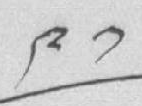༩༡
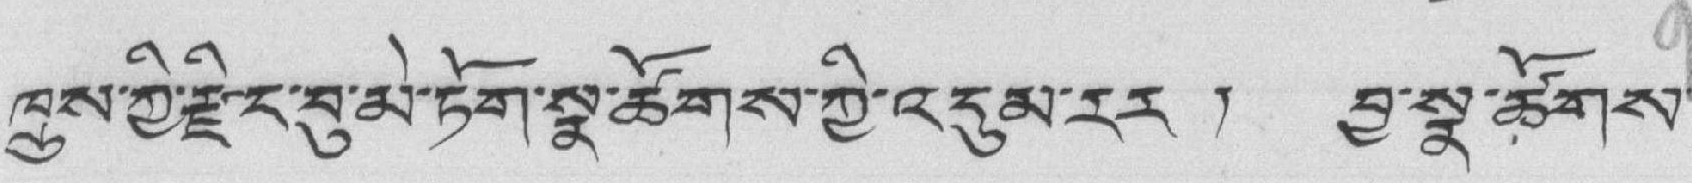ཁྲུས་ཀྱི་རྫིང་བུ་མེ་ཏོག་སྣ་ཚོགས་ཀྱི་འདུམ་རར ། བྱ་སྣ་ཚོགས་
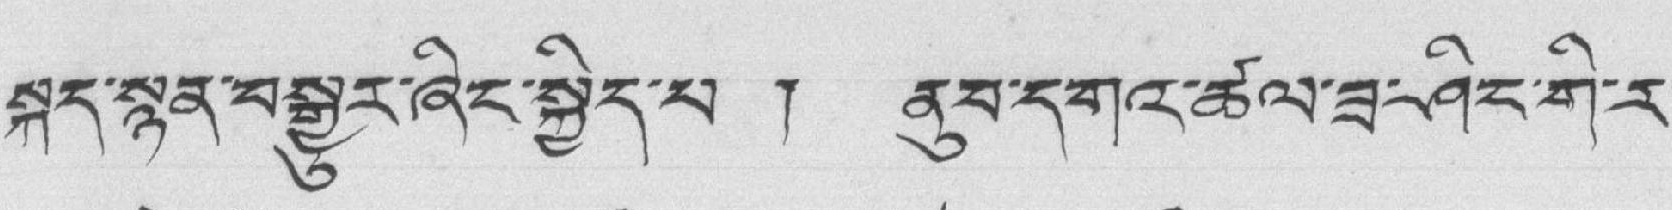སྐད་སྙན་བསྒྱུར་ཞིང་སྐྱེད་པ ། ནུབ་དགའ་ཚལ་ཟ་ཤིང་གི་ར་
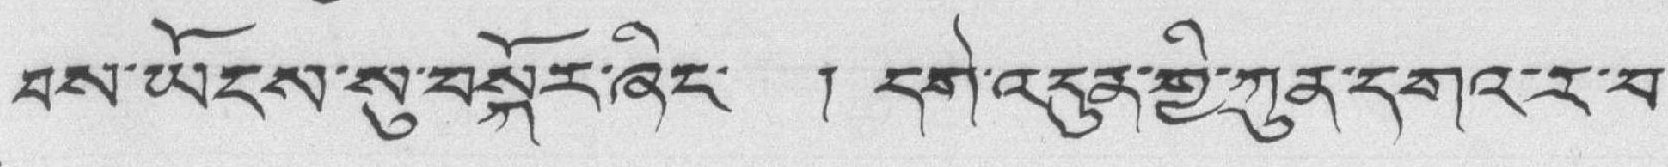བས་ཡོངས་སུ་བསྐོར་ཞིང་ ། དགེ་འདུན་གྱི་ཀུན་དགའ་ར་བ་
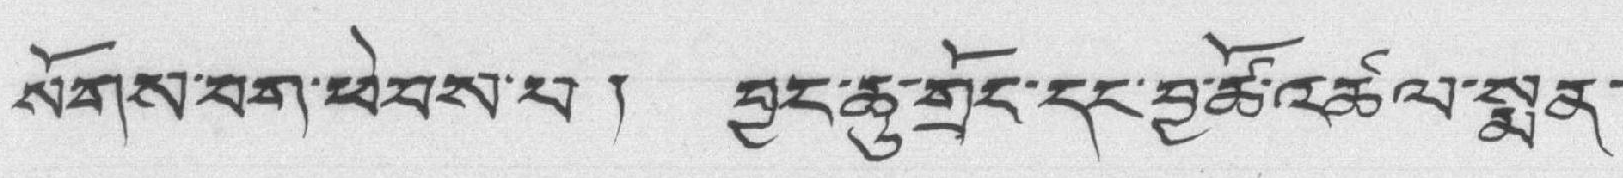སོགས་བག་ཕེབས་པ། བྱད་ཆུ་གྲོང་དང་བྱ་ཚོ་འཚལ་སྨན་
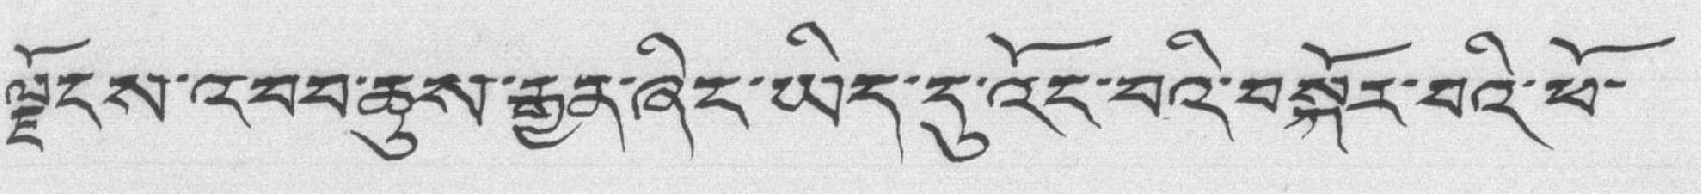ལྗོངས་འབབ་ཆུས་རྒྱན་ཞིང་ཡིད་དུ་འོང་བའི་བསྐོར་བའི་ཕོ་
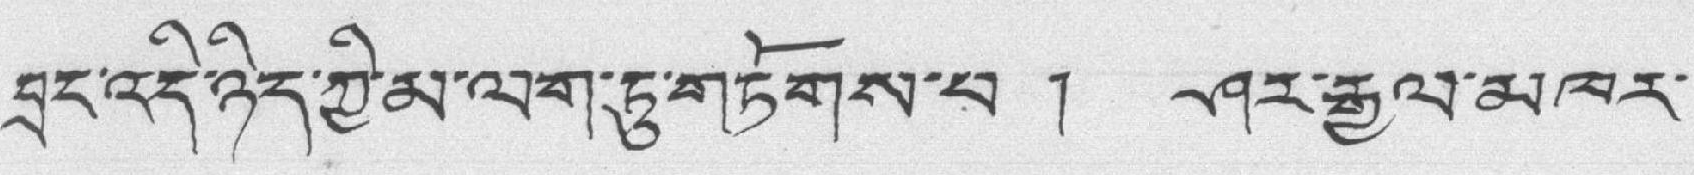བྲང་འདི་ཉིད་ཀྱི་མ་ལག་ཏུ་གཏོགས་པ ། ཤར་རྒྱལ་མཁར་
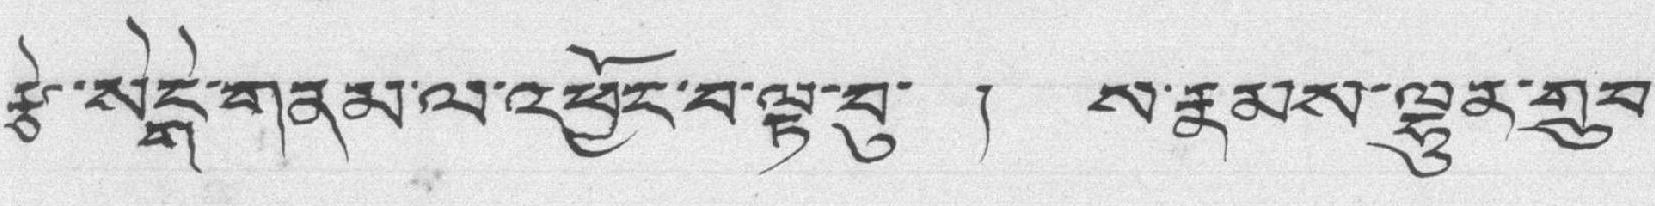རྩེ་སེདྒེ་གནམ་ལ་འཕྱོང་བ་ལྟ་བུ་ ། ས་རྣམས་ལྷུན་གྲུབ་
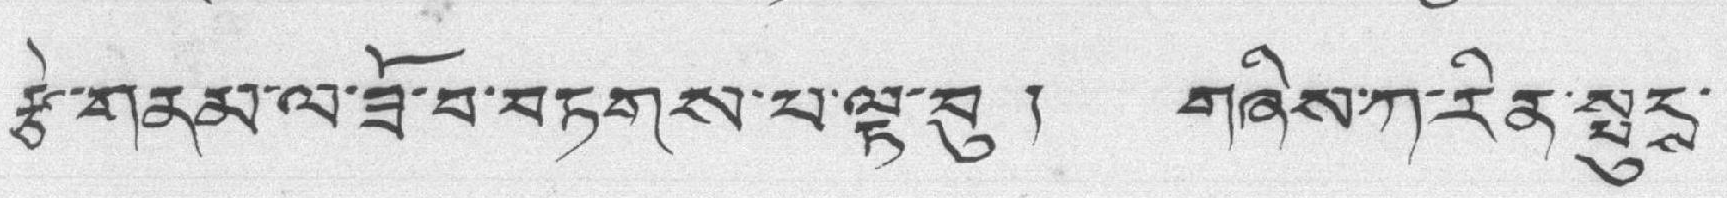རྩེ་གནམ་ལ་ཟོ་བ་བཏགས་པ་ལྟ་བུ ། གཞིས་ཀ་རིན་སྤུངས་
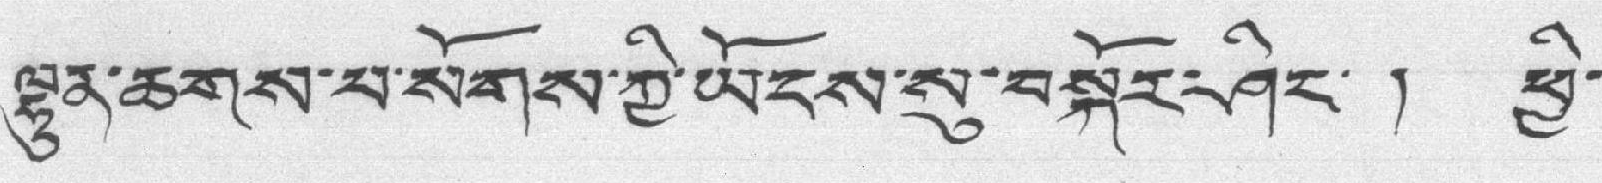ལྷུན་ཆགས་པ་སོགས་ཀྱི་ཡོངས་སུ་བསྐོར་ཤིང་ ། ཕྱི་
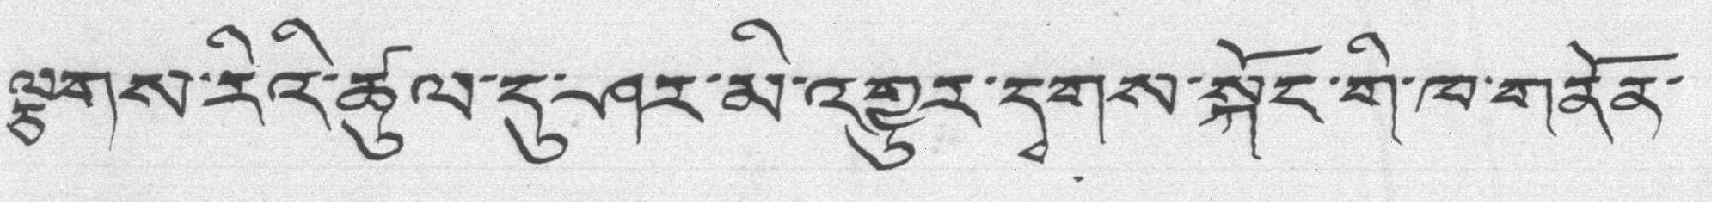ལྕགས་རིའི་ཚུལ་དུ་ཤར་མ་འགྱུར་དྭགས་སྐོང་གི་ཁ་གནོན་
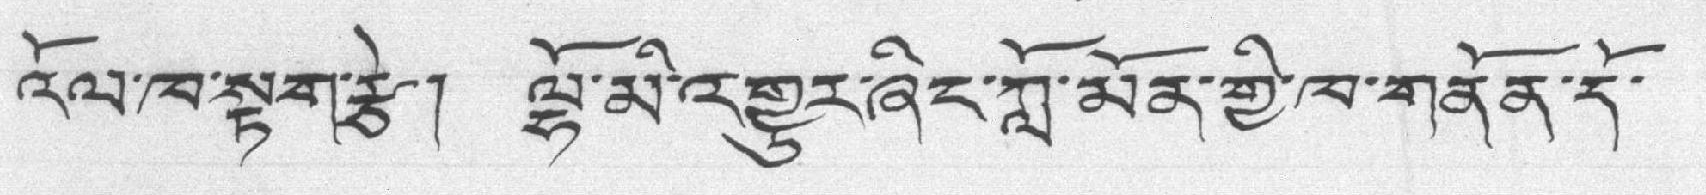འོལ་ཁ་སྟག་རྩེ། ལྷོ་མི་འགྱུར་ཞིང་ཀློ་མོན་གྱི་ཁ་གནོན་དོ་
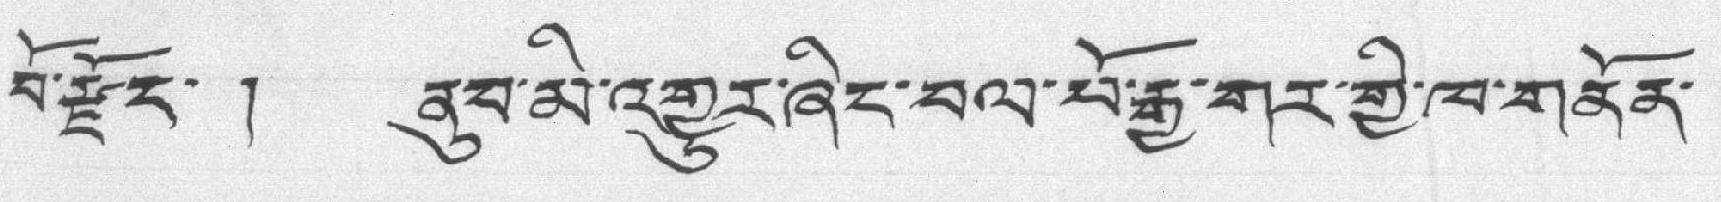བོ་རྫོང་ ། ནུབ་མི་འགྱུར་ཞིང་བལ་པོ་རྒྱ་གར་གྱི་ཁ་གནོན་
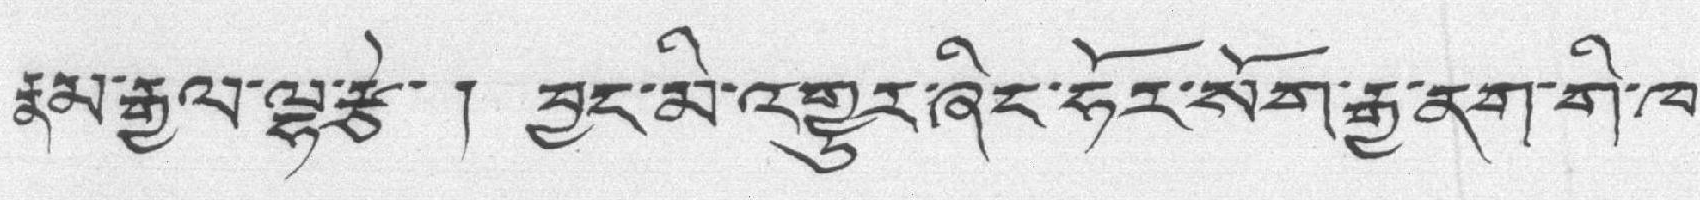རྣམ་རྒྱལ་ལྷ་རྩེ་། བྱང་མི་འགྱུར་ཞིང་ཧོར་སོག་རྒྱ་ནག་གི་ཁ་
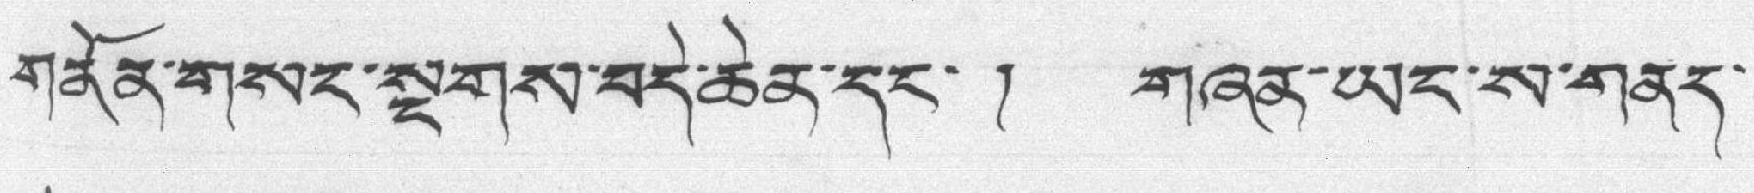གནོན་གསང་སྔགས་བདེ་ཆེན་དང་ ། གཞན་ཡང་ས་གནད་
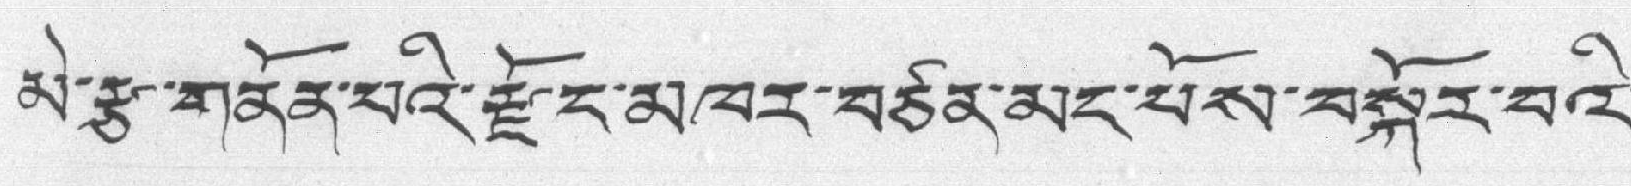མེ་རྩ་གནོན་པའི་རྫོང་མཁར་བཙན་མང་པོས་བསྐོར་བའི་
